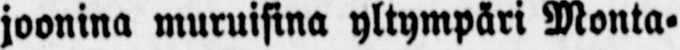joonina muruisina yltympäri Monta-
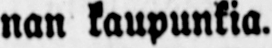nan kaupunkia.
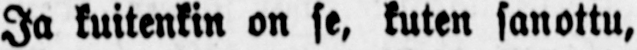Ja kuitenkin on se, kuten sanottu,
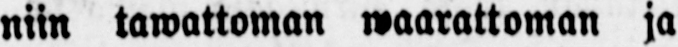niin tawattoman waarattoman ja
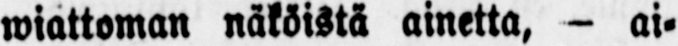wiattoman näköistä ainetta, - ai-
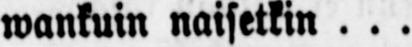wankuin naisetkin . . .
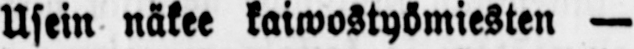Usein näkee kaiwostyömiesten —
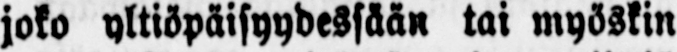joko yltiöpäisyydessään tai myöskin
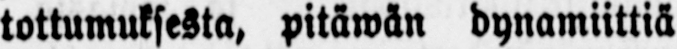tottumuksesta, pitäwän dynamiittiä
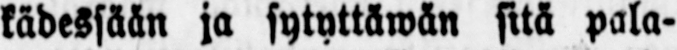kädessään ja sytyttäwän sitä pala-
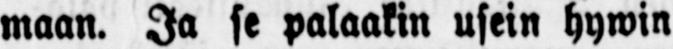maan. Ja se palaakin usein hywin
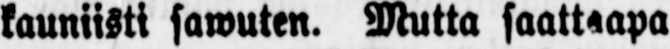kauniisti sawuten. Mutta saataapa
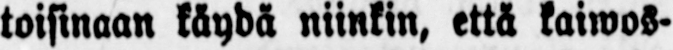toisinaan käydä niinkin, että kaiwos-
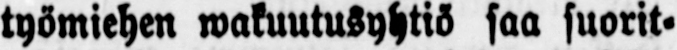työmiehen wakuutusyhtiö saa suorit-
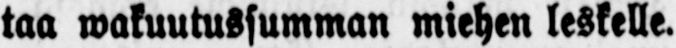taa wakuutussumman miehen leskelle.
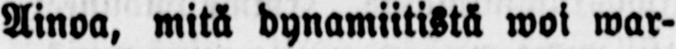Ainoa, mitä dynamiitistä woi war-
